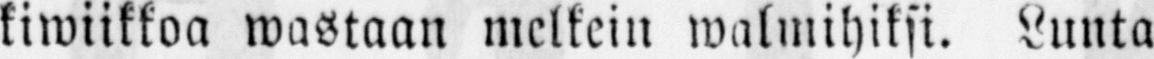kiwiikkoa wastaan melkein walmihiksi. Lunta
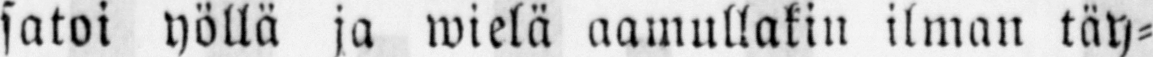satoi yöllä ja wielä aamullakin ilman täy-
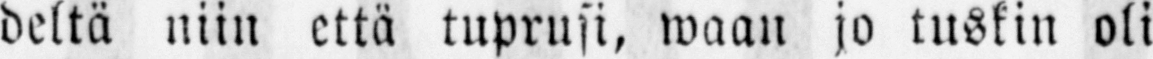deltä niin että tuprusi, waan jo tuskin oli
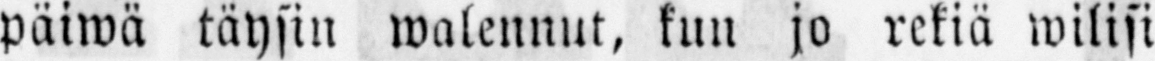päiwä täysin walennut, kun jo rekiä wilisi
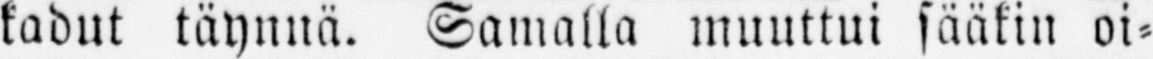kadut täynnä. Samalla muuttui sääkin oi-
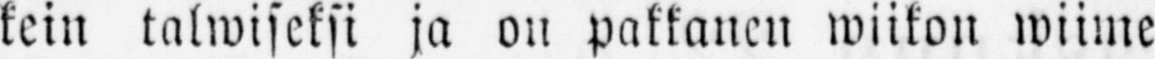kein talwiseksi ja on pakkanen wiikon wiime
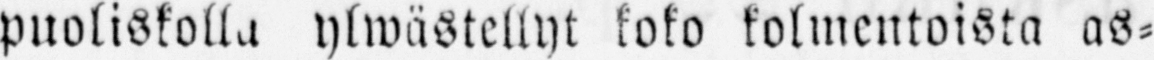puoliskolla ylwästellyt koko kolmentoista as-
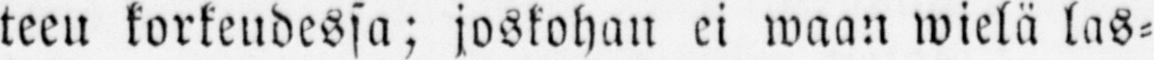teen korkeudessa; joskohan ei waan wielä las-
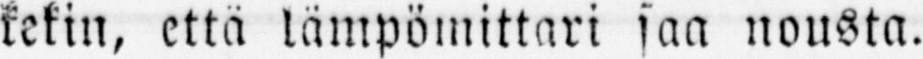kekin, että lämpömittari saa nousta.
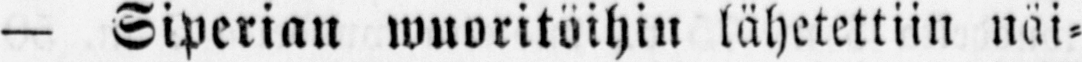— Siperian wuoritöihin lähetettiin näi-
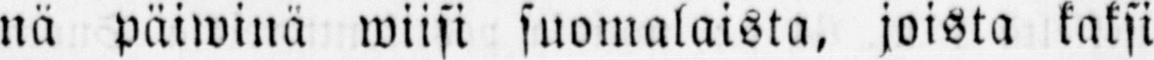nä päiwinä wiisi suomalaista, joista kaksi
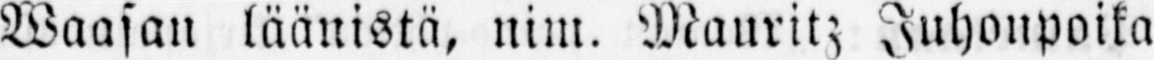Waasan läänistä, nim. Mauritz Juhoupoika
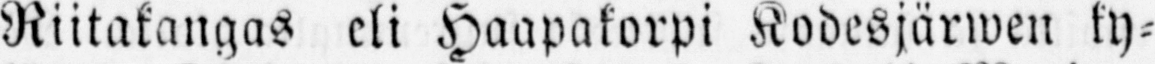Riitakangas eli Haapakorpi Kodesjärwen ky-
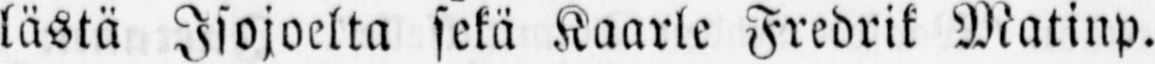lästä Isojoelta sekä Kaarle Fredrik Matinp.
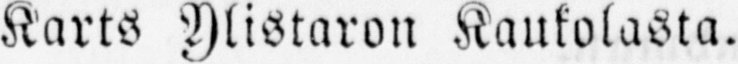Karts Ylistaron Kaukolasta.
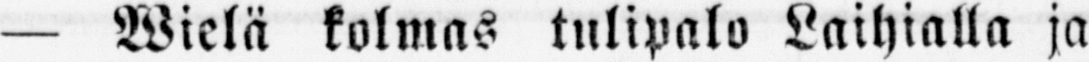— Wielä kolmas tulipalo Laihialla ja
